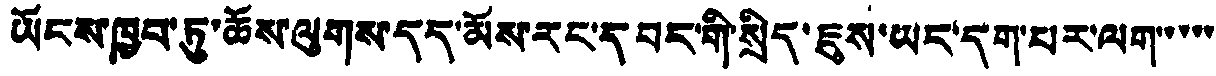ཡོངས་ཁྱབ་ཏུ་ཆོས་ལུགས་དད་མོས་རང་དབང་གི་སྲིད་ཇུས་ཡང་དག་པར་ལག་་་་་
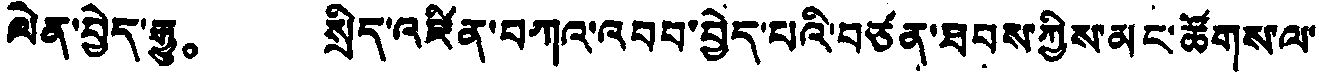ལེན་བྱེད་རྒྱུ。 སྲིད་འཛིན་བཀའ་འབབ་བྱེད་པའི་བཙན་ཐབས་ཀྱིས་མང་ཚོགས་ལ་
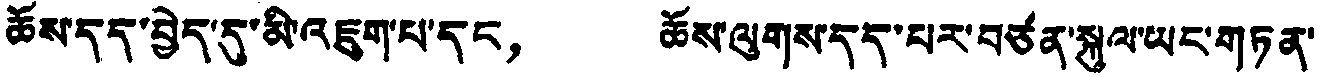ཆོས་དད་བྱེད་དུ་མི་འཇུག་པ་དང， ཆོས་ལུགས་དད་པར་བཙན་སྐུལ་ཡང་གཏན་
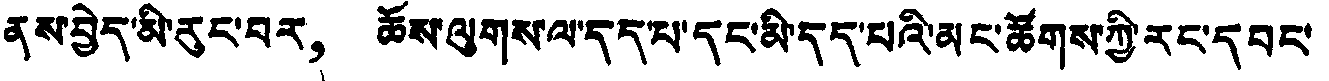ནས་བྱེད་མི་རུང་བར， ཆོས་ལུགས་ལ་དད་པ་དང་མི་དད་པའི་མང་ཚོགས་ཀྱི་རང་དབང་
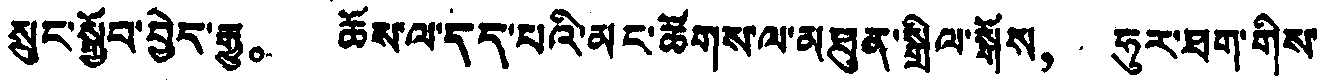སྲུང་སྐྱོབ་བྱེད་རྒྱུ。 ཆོས་ལ་དད་པའི་མང་ཚོགས་ལ་མཐུན་སྒྲིལ་སྒོས， ཧུར་ཐག་གིས་
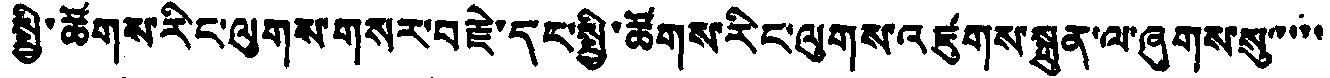སྤྱི་ཚོགས་རིང་ལུགས་གསར་བརྗེ་དང་སྤྱི་ཚོགས་རིང་ལུགས་འཛུགས་སྐྲུན་ལ་ཞུགས་སུ་་་་་
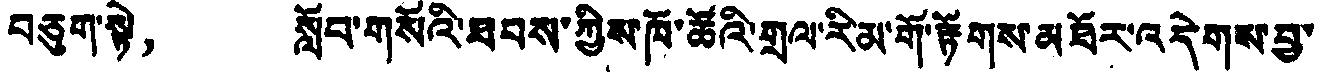བཅུག་སྟེ， སློབ་གསོའི་ཐབས་ཀྱིས་ཁོ་ཚོའི་གྲལ་རིམ་གོ་རྟོགས་མཐོར་འདེགས་བྱ་
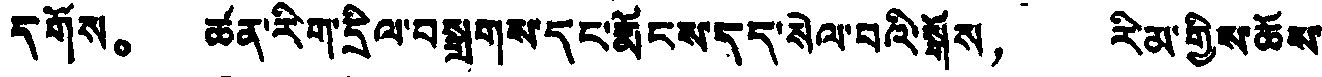དགོས。 ཚན་རིག་དྲིལ་བསྒྲགས་དང་རྨོངས་དད་སེལ་བའི་སྒོས， རིམ་གྱིས་ཆོས་
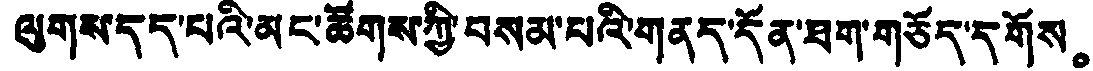ལུགས་དད་པའི་མང་ཚོགས་ཀྱི་བསམ་པའི་གནད་དོན་ཐག་གཅོད་དགོས。
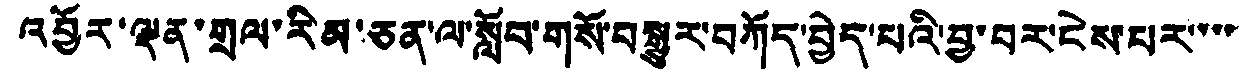འབྱོར་ལྡན་གྲལ་རིམ་ཅན་ལ་སློབ་གསོ་བསྒྱུར་བཀོད་བྱེད་པའི་བྱ་བར་ངེས་པར་་་་་
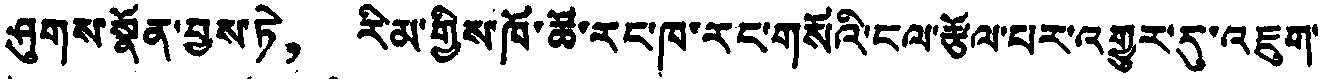ཤུགས་སྣོན་བྱས་ཏེ， རིམ་གྱིས་ཁོ་ཚོ་རང་ཁ་རང་གསོའི་ངལ་རྩོལ་པར་འགྱུར་རུ་འཇུག་
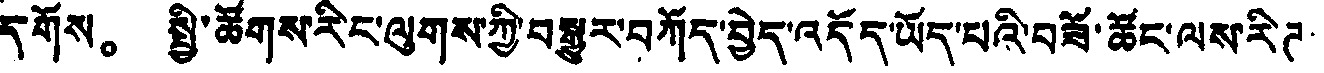དགོས。 སྤྱི་ཚོགས་རིང་ལུགས་ཀྱི་བསྒྱུར་བཀོད་བྱེད་འདོད་ཡོད་པའི་བཟོ་ཚོང་ལས་རིཊ་
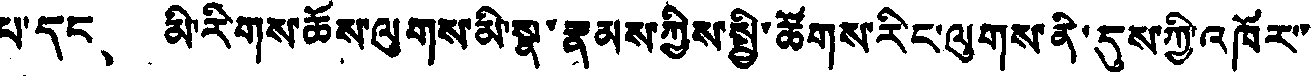པ་དང、 མི་རིགས་ཆོས་ལུགས་མི་སྣ་རྣམས་ཀྱིས་སྤྱི་ཚོགས་རིང་ལུགས་ནི་དུས་ཀྱི་འཁོར་་
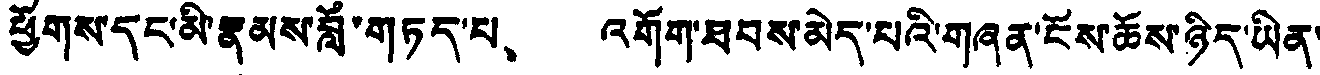ཕྱོགས་དང་མི་རྣམས་བློ་གཏད་པ། འགོག་ཐབས་མེད་པའི་གཞན་ངོས་ཆོས་ཉིད་ཡིན་
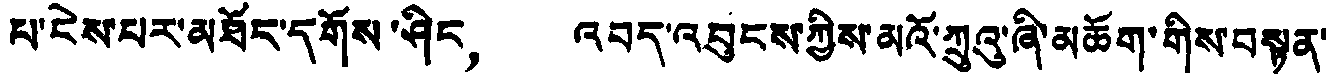པ་ངེས་པར་མཐོང་དགོས་ཤིང， འབད་འབུངས་ཀྱིས་མའོ་ཀྲུའུ་ཞི་མཆོག་གིས་བསྟན་
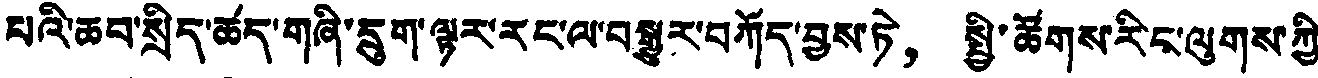པའི་ཆབ་སྲིད་ཚད་གཞི་དྲུག་ལྟར་རང་ལ་བསྒྱུར་བཀོད་བྱས་ཏེ， སྤྱི་ཚོགས་རིང་ལུགས་ཀྱི་
